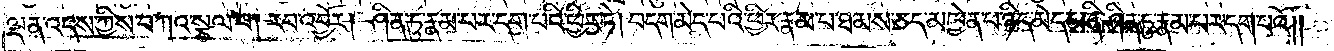ལྡན་འདས་ཀྱིས་བཀའ་སྩལ་པ། རབ་འབྱོར། ཤིན་ཏུ་རྣམ་པར་དག་པའི་ཕྱིར་ཏེ། བདག་མེད་པའི་ཕྱིར་རྣམ་པ་ཐམས་ཅད་མཁྱེན་པ་ཉིད་མེད་པ་ནི་ཤིན་ཏུ་རྣམ་པར་དག་པའོ༎
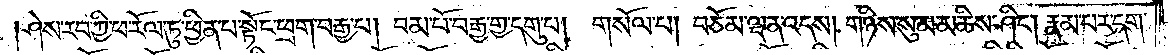ཤེས་རབ་ཀྱི་ཕ་རོལ་ཏུ་ཕྱིན་པ་སྟོང་ཕྲག་བརྒྱ་པ། བམ་པོ་བརྒྱ་གྱ་དགུ་པ། གསོལ་པ། བཅོམ་ལྡན་འདས། གཉིས་སུ་མ་མཆིས་ཤིང༌། རྣམ་པར་དག་
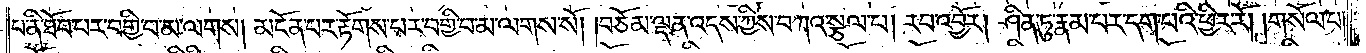པ་ནི་ཐོབ་པར་བགྱི་བ་མ་ལགས། མངོན་པར་རྟོགས་པར་བགྱི་བ་མ་ལགས་སོ། །བཅོམ་ལྡན་འདས་ཀྱིས་བཀའ་སྩལ་པ། རབ་འབྱོར། ཤིན་ཏུ་རྣམ་པར་དག་པའི་ཕྱིར་རོ། །གསོལ་པ།
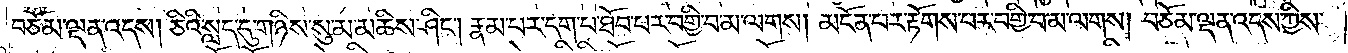བཅོམ་ལྡན་འདས། ཅིའི་སླད་དུ་གཉིས་སུ་མ་མཆིས་ཤིང༌། རྣམ་པར་དག་པ་ཐོབ་པར་བགྱི་བ་མ་ལགས། མངོན་པར་རྟོགས་པར་བགྱི་བ་མ་ལགས། བཅོམ་ལྡན་འདས་ཀྱིས་
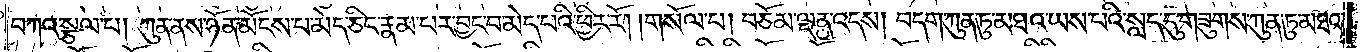བཀའ་སྩལ་པ། ཀུན་ནས་ཉོན་མོངས་པ་མེད་ཅིང་རྣམ་པར་བྱང་བ་མེད་པའི་ཕྱིར་རོ། །གསོལ་པ། བཅོམ་ལྡན་འདས། བདག་ཀུན་ཏུ་མཐའ་ཡས་པའི་སླད་དུ་གཟུགས་ཀུན་ཏུ་མཐའ་
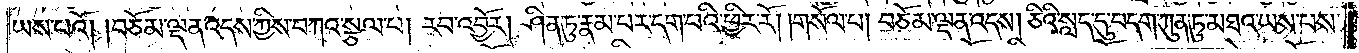ཡས་པའོ། །བཅོམ་ལྡན་འདས་ཀྱིས་བཀའ་སྩལ་པ། རབ་འབྱོར། ཤིན་ཏུ་རྣམ་པར་དག་པའི་ཕྱིར་རོ། །གསོལ་པ། བཅོམ་ལྡན་འདས། ཅིའི་སླད་དུ་བདག་ཀུན་ཏུ་མཐའ་ཡས་པས་
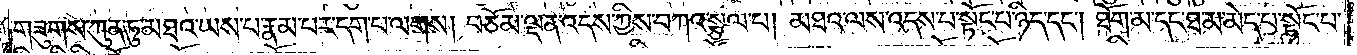གཟུགས་ཀུན་ཏུ་མཐའ་ཡས་པ་རྣམ་པར་དག་པ་ལགས། བཅོམ་ལྡན་འདས་ཀྱིས་བཀའ་སྩལ་པ། མཐའ་ལས་འདས་པ་སྟོང་པ་ཉིད་དང༌། ཐོག་མ་དང་ཐ་མ་མེད་པ་སྟོང་པ་
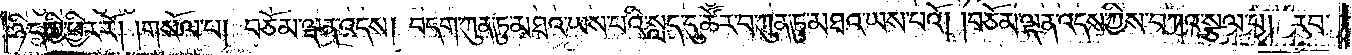ཉིད་ཀྱི་ཕྱིར་རོ། །གསོལ་པ། བཅོམ་ལྡན་འདས། བདག་ཀུན་ཏུ་མཐའ་ཡས་པའི་སླད་དུ་ཚོར་བ་ཀུན་ཏུ་མཐའ་ཡས་པའོ། །བཅོམ་ལྡན་འདས་ཀྱིས་བཀའ་སྩལ་པ། རབ་
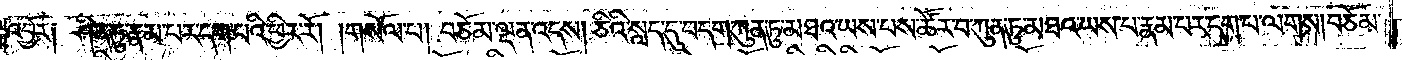འབྱོར༑ ཤིན་ཏུ་རྣམ་པར་དག་པའི་ཕྱིར་རོ། །གསོལ་པ། བཅོམ་ལྡན་འདས། ཅིའི་སླད་དུ་བདག་ཀུན་ཏུ་མཐའ་ཡས་པས་ཚོར་བ་ཀུན་ཏུ་མཐའ་ཡས་པ་རྣམ་པར་དག་པ་ལགས། བཅོམ་
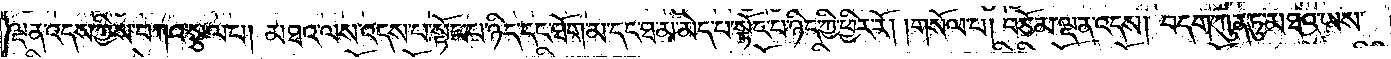ལྡན་འདས་ཀྱིས་བཀའ་སྩལ་པ། མཐའ་ལས་འདས་པ་སྟོང་པ་ཉིད་དང་ཐོག་མ་དང་ཐ་མ་མེད་པ་སྟོང་པ་ཉིད་ཀྱི་ཕྱིར་རོ། །གསོལ་པ། བཅོམ་ལྡན་འདས། བདག་ཀུན་ཏུ་མཐའ་ཡས་
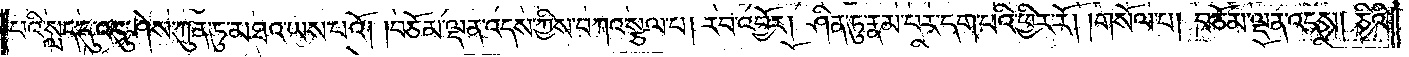པའི་སླད་དུ་འདུ་ཤེས་ཀུན་ཏུ་མཐའ་ཡས་པའོ། །བཅོམ་ལྡན་འདས་ཀྱིས་བཀའ་སྩལ་པ། རབ་འབྱོར། ཤིན་ཏུ་རྣམ་པར་དག་པའི་ཕྱིར་རོ། །གསོལ་པ། བཅོམ་ལྡན་འདས། ཅིའི་
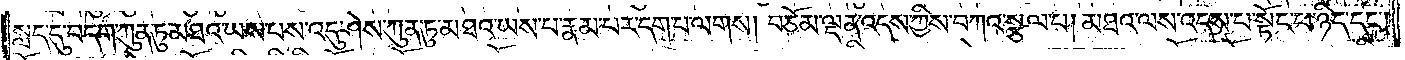སླད་དུ་བདག་ཀུན་ཏུ་མཐའ་ཡས་པས་འདུ་ཤེས་ཀུན་ཏུ་མཐའ་ཡས་པ་རྣམ་པར་དག་པ་ལགས། བཅོམ་ལྡན་འདས་ཀྱིས་བཀའ་སྩལ་པ། མཐའ་ལས་འདས་པ་སྟོང་པ་ཉིད་དང༌།
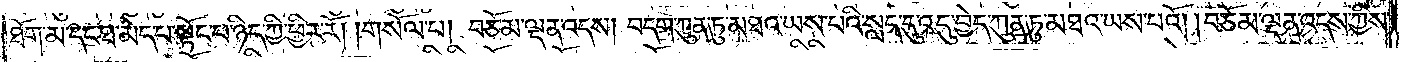ཐོག་མ་དང་ཐ་མ་མེད་པ་སྟོང་པ་ཉིད་ཀྱི་ཕྱིར་རོ། །གསོལ་པ། བཅོམ་ལྡན་འདས། བདག་ཀུན་ཏུ་མཐའ་ཡས་པའི་སླད་དུ་འདུ་བྱེད་ཀུན་ཏུ་མཐའ་ཡས་པའོ། །བཅོམ་ལྡན་འདས་ཀྱིས་
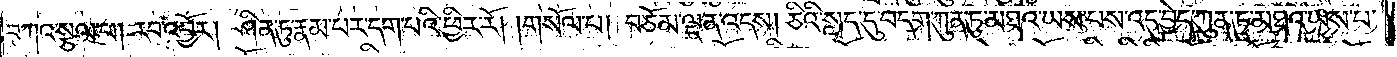བཀའ་སྩལ་པ། རབ་འབྱོར། ཤིན་ཏུ་རྣམ་པར་དག་པའི་ཕྱིར་རོ། །གསོལ་པ། བཅོམ་ལྡན་འདས། ཅིའི་སླད་དུ་བདག་ཀུན་ཏུ་མཐའ་ཡས་པས་འདུ་བྱེད་ཀུན་ཏུ་མཐའ་ཡས་པ་
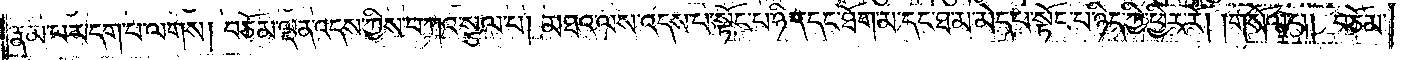རྣམ་པར་དག་པ་ལགས། བཅོམ་ལྡན་འདས་ཀྱིས་བཀའ་སྩལ་པ། མཐའ་ལས་འདས་པ་སྟོང་པ་ཉིད་དང་ཐོག་མ་དང་ཐ་མ་མེད་པ་སྟོང་པ་ཉིད་ཀྱི་ཕྱིར་རོ། །གསོལ་པ། བཅོམ་
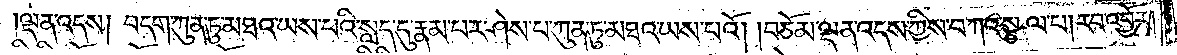ལྡན་འདས། བདག་ཀུན་ཏུ་མཐའ་ཡས་པའི་སླད་དུ་རྣམ་པར་ཤེས་པ་ཀུན་ཏུ་མཐའ་ཡས་པའོ། །བཅོམ་ལྡན་འདས་ཀྱིས་བཀའ་སྩལ་པ། རབ་འབྱོར།
